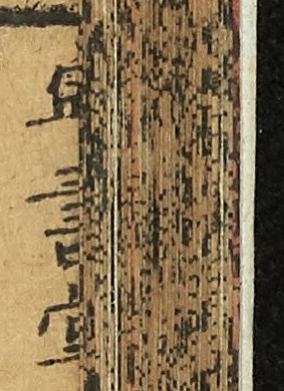寧壽堂
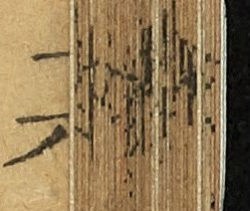十六
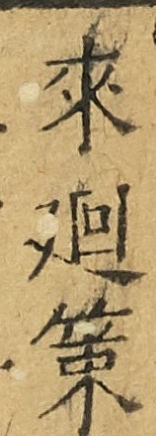來廻策
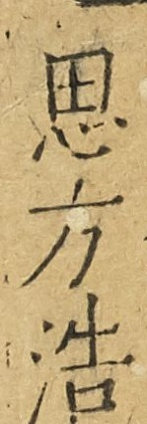思方浩
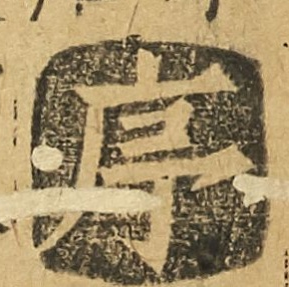序
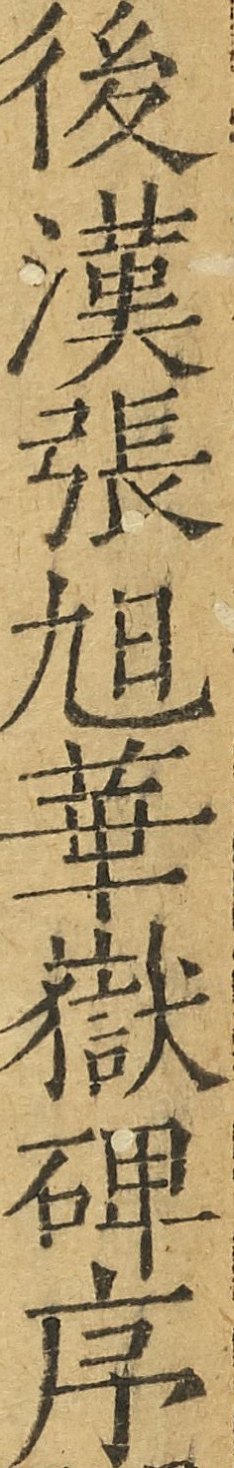後漢張旭華嶽碑序
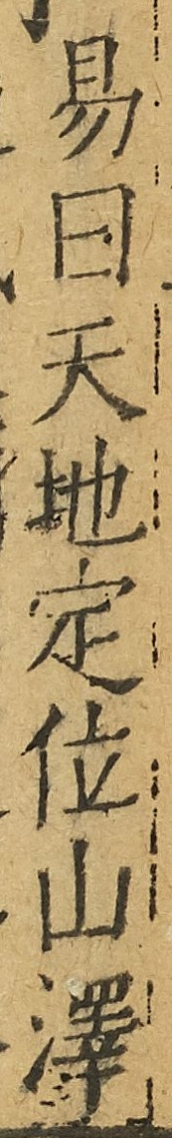易曰天地定位山澤
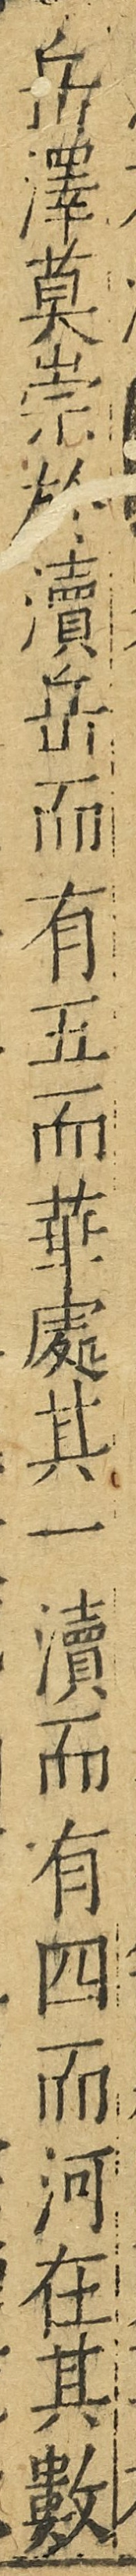岳澤莫崇於瀆岳而有五而華處其一瀆而有四而河在其數
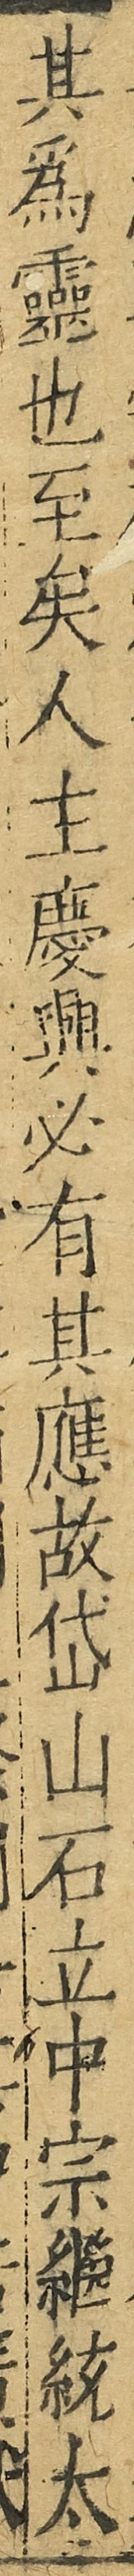其為靈也至矣人主慶興必有其應故岱山石立中宗繼統太
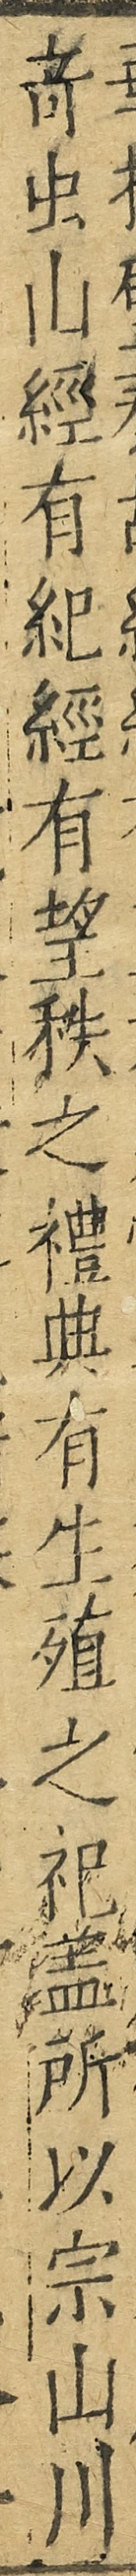奇蟲山經有紀經有望秩之禮典有生殖之祀蓋所以宗山川
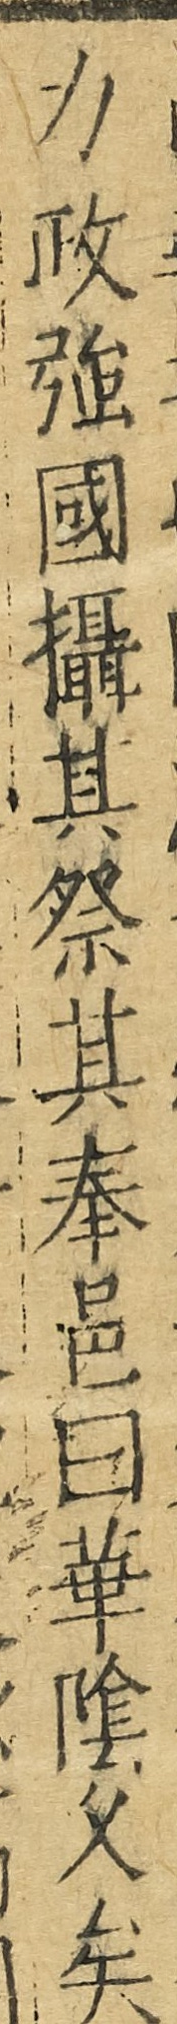力政強國攝其祭其奉邑曰華陰久矣
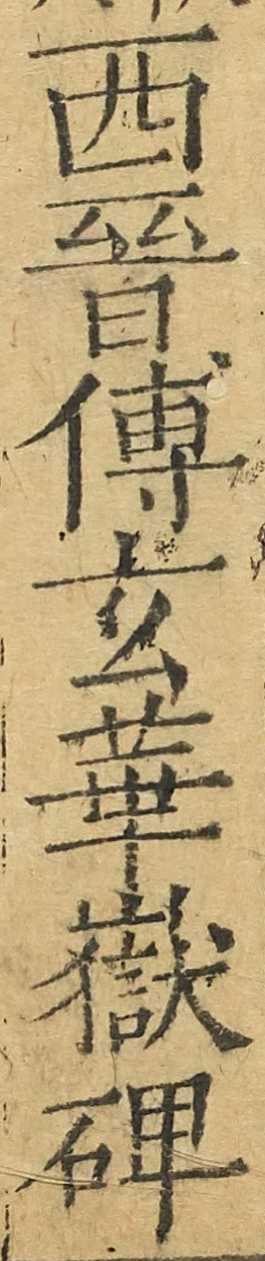西晉傅玄華嶽碑
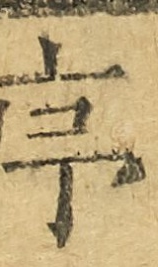序
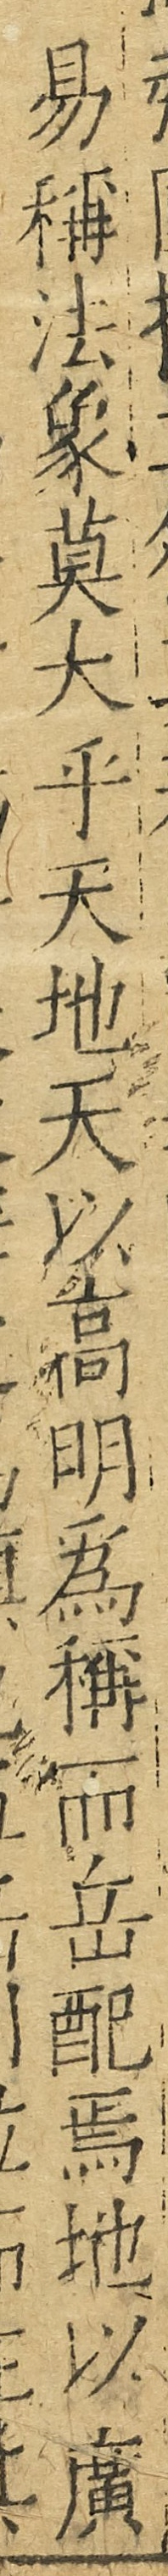易稱法象莫大乎天地天以高明為稱而岳配焉地以廣
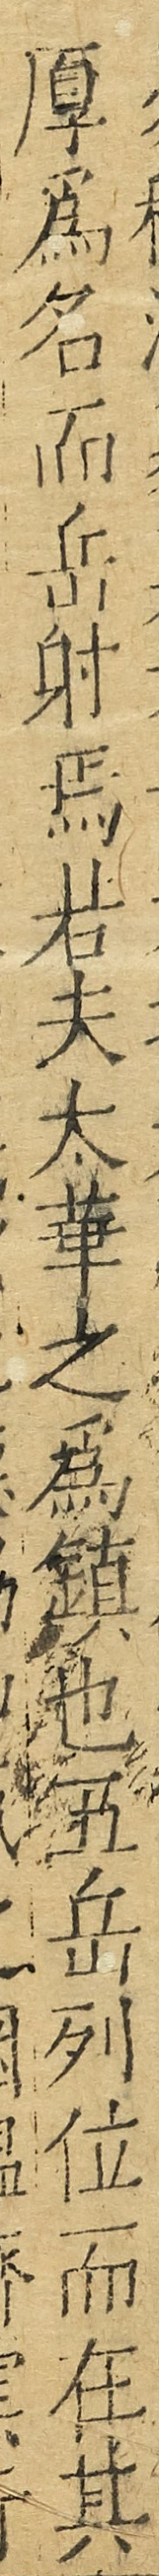厚為名而岳射焉若夫太華之為鎮也五岳列位而在其
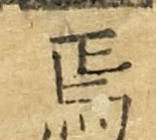焉
